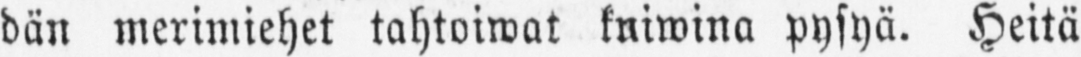dän merimiehet tahtoiwat kniwina pysyä. Heitä
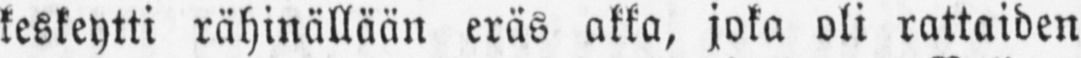keskeytti rähinällään eräs akka, joka oli rattaiden
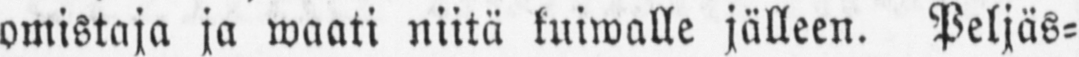omistaja ja waati niitä kuiwalle jälleen. Peljäs-
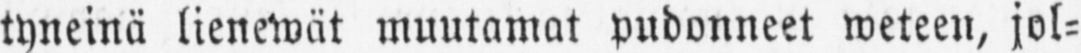tyneinä lienewät muutamat pudonneet weteen, jol-
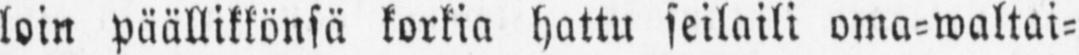loin päällikkönsä korkia hattu seilaili oma-waltai-
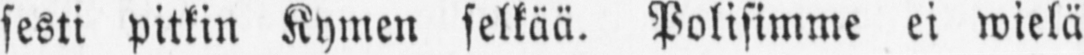sesti pitkin Kymen selkää. Polisimme ei wielä
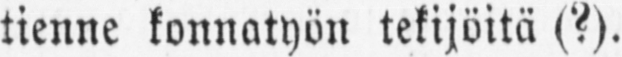tienne konnatyön tekijöitä (?).
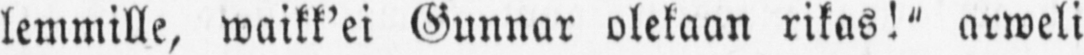lemmille, waikk'ei Gunnar aletaan rikas!" arweli
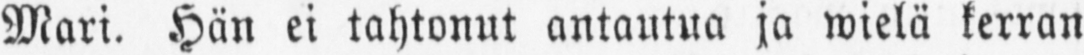Mari. Hän ei tahtonut antautua ja wielä kerran
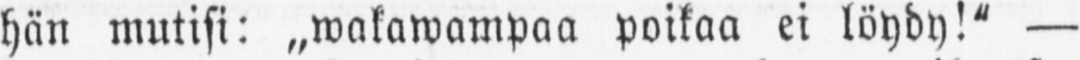hän mutisi: „wakawampaa poikaa ei löydy!" —
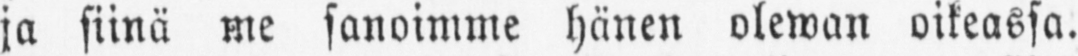ja siinä me sanoimme hänen olewan oikeassa.
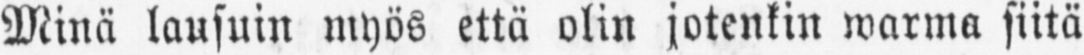Minä lausuin myös että olin jotenkin warma siitä
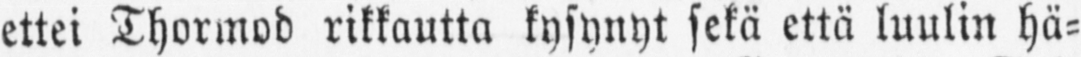ettei Thormod rikkautta kysynyt sekä että luulin hä-
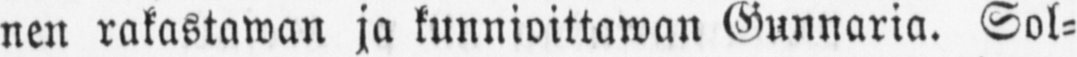nen rakastawan ja kunnioittawan Gunnaria. Sol-
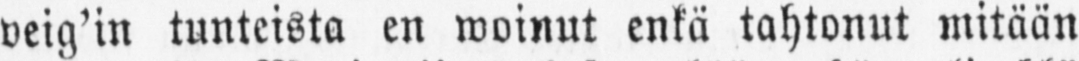veig'in tunteista en woinut enkä tahtonut mitään
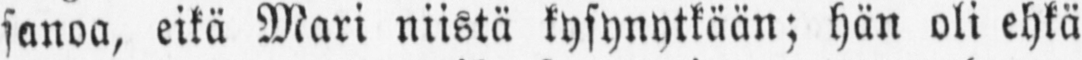sanoa, eikä Mari niistä kysynytkään; hän oli ehkä
